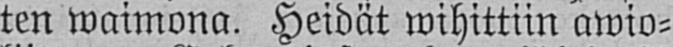ten waimona. Heidät wihittiin awio-
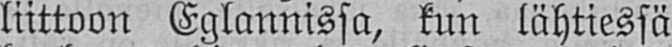liittoon Eglannissa, kun lähtiessä
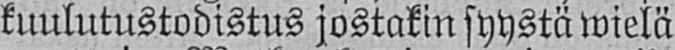kuulutustodistus jostakin syystä wielä
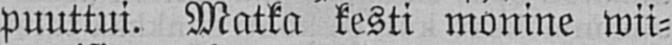puuttui. Matka kesti monine wii-
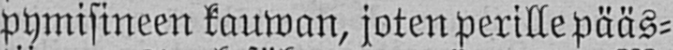pymisineen kauwan, joten perille pääs-
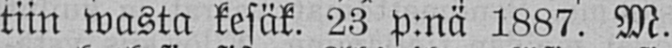tiin wasta kesäk. 23 p:nä 1887. M.
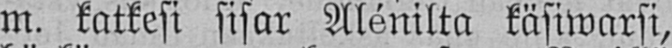m. katkesi sisar Alénilta käsiwarsi,
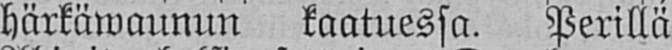härkäwaunun kaatuessa. Perillä
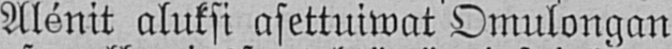Alénit aluksi asettuiwat Omulongan
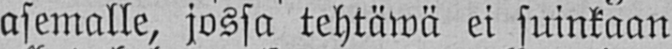asemalle, jossa tehtäwä ei suinkaan
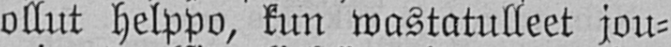ollut helppo, kun wastatulleet jou-
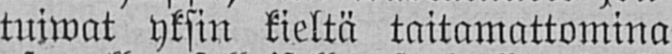tuiwat yksin kieltä taitamattomina
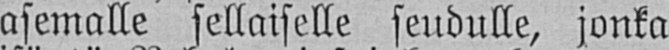asemalle sellaiselle seudulle, jonka
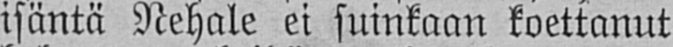isäntä Nehale ei suinkaan koettanut
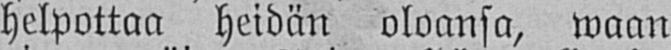helpottaa heidän oloansa, waan
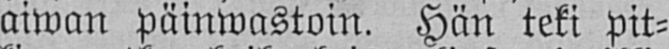aiwan päinwastoin. Hän teki pit-
